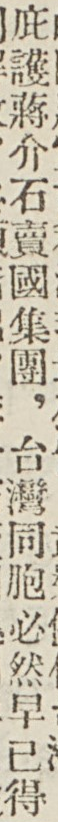庇護蔣介石賣國集團，台灣同胞必然早已得
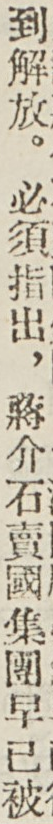到解放。必須指出，蔣介石賣國集團早已被
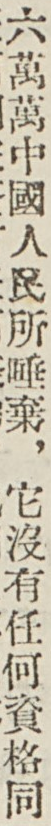六萬萬中國人民所唾棄，它沒有任何資格同
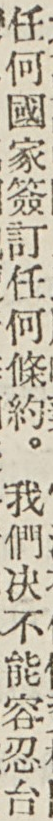任何國家簽訂任何條約。我們絕不能容忍台
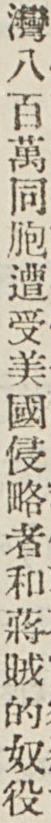灣八百萬同胞遭受美國侵略者和蔣賊的奴役
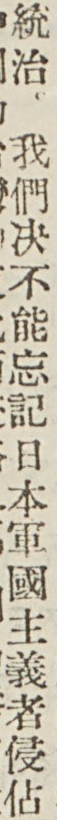統治。我們決不能忘記日本軍國主義者侵佔
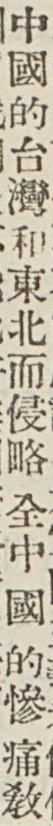中國的台灣和東北而侵略 全中國 的慘痛敎
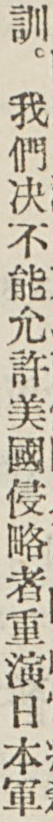訓。我們決不能允許美國侵略者重演日本軍
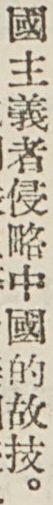國主義者侵略中國的故技。
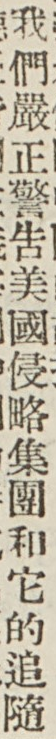我們嚴正警告美國侵略集團和它的追隨
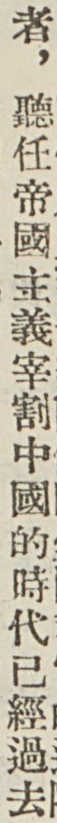者，聽任帝國主義宰割中國的時代已經過去
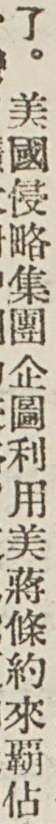了。美國侵略集團企圖利用美蔣條約來霸佔
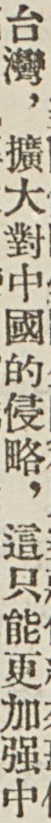台灣，擴大對中國的侵略，這只能更加強中
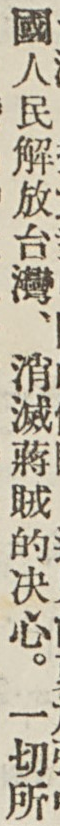國人民解放台灣、消滅蔣賊的決心。一切所
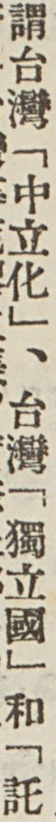謂台灣「中立化」、台灣「獨立國」和「託
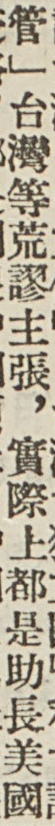管」台灣等荒謬主張，實際上都是助長美國
